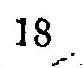18
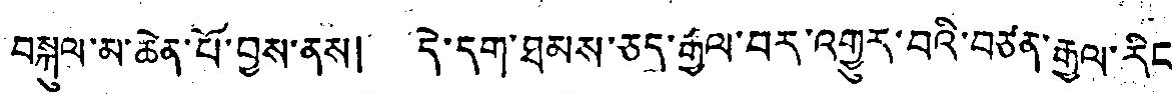བསྐུལ་མ་ཆེན་པོ་བྱས་ནས། དེ་དག་ཐམས་ཅད་རྒྱལ་བར་འགྱུར་བའི་བཙན་རྒྱལ་རིང
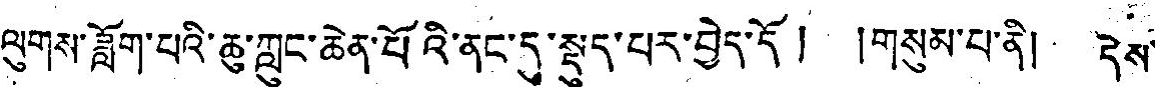ལུགས་ཟློག་པའི་ཆུ་ཀླུང་ཆེན་པོའི་ནང་དུ་སྡུད་པར་བྱེད་དོ། །གསུམ་པ་ནི། དེས་
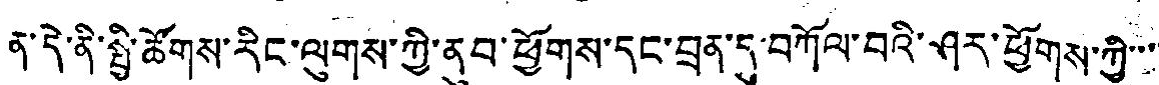ན་དེ་ནི་སྤྱི་ཚོགས་རིང་ལུས་ཀྱི་ནུབ་ཕྱོགས་དང་བྲན་དུ་བཀོལ་བའི་ཤར་ཕྱོགས་ཀྱི་་་་
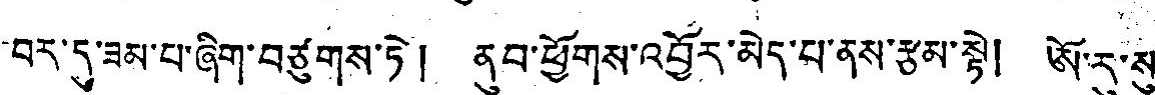བར་དུ་ཟམ་པ་ཞིག་བཙུགས་ཏེ། ནུབ་ཕྱོགས་འབྱོར་མེད་པ་ནས་རྩམ་སྟེ། ཨོ་རུ་སུ་
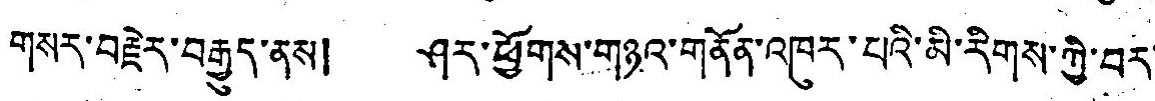གསར་བརྗེར་བརྒྱུད་ནས། ཤར་ཕྱོགས་གཉའ་གནོན་འཁུར་པའི་མི་རིགས་ཀྱི་བར་
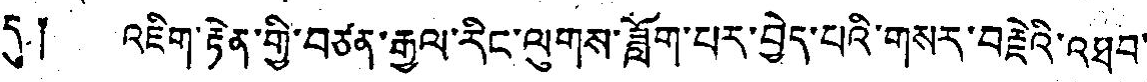དུ༐ འཇིག་རྟེན་གྱི་བཙན་རྒྱལ་རིང་ལུགས་ཟློག་པར་བྱེད་པའི་གསར་བརྗེའི་འཐབ་
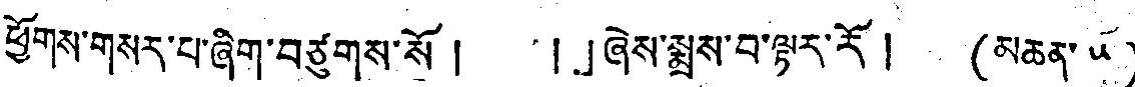ཕྱོགས་གསར་པ་ཞིག་བཙུགས་སོ ། །」ཞེས་སྨྲས་བ་ལྟར་རོ ། (མཆན་ ༥)
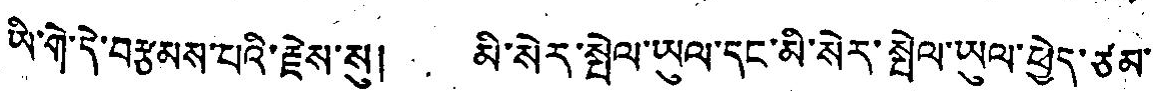ཡི་གེ་དེ་བརྩམས་པའི་རྗེས་སུ། མི་སེར་སྤེལ་ཡུལ་དང་མི་སེར་སྤེལ་ཡུལ་ཕྱེད་ཙམ་
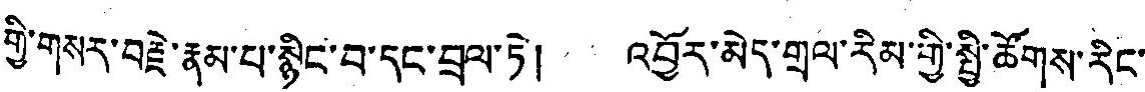གྱི་གསར་བརྗེ་རྣམ་པ་སྙིང་བ་དང་བྲལ་ཏེ། འབྱོར་མེད་གྲལ་རིམ་གྱི་སྤྱི་ཚོགས་རིང་
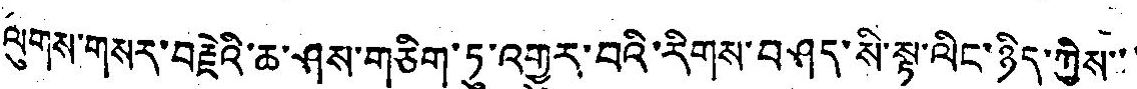ལུགས་གསར་བརྗེའི་ཆ་ཤས་གཅིག་ཏུ་འགྱུར་བའི་རིགས་བཤད་སི་སྟ་ལིང་ཉིད་ཀྱིས་་་
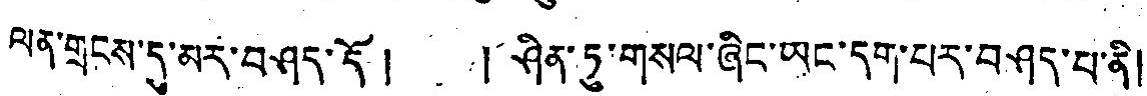ལན་གྲངས་དུ་མར་བཤད་དོ ། ། ཤིན་ཏུ་གསལ་ཞིང་ཡང་དག་པར་བཤད་པ་ནི།
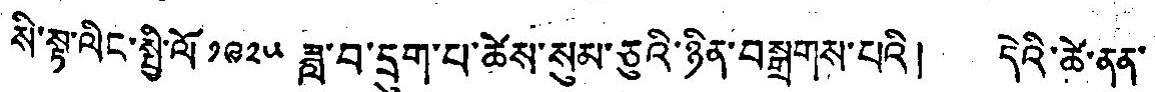སི་སྟ་ལིང་སྤྱི་ལོ ༡༩༢༥ ཟླ་བ་དྲུག་པ་ཚེས་སུམ་ཅུའི་ཉིན་བསྒྲགས་པའི། དེའི་ཚེ་ནན་
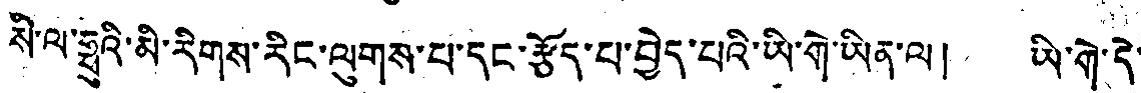སི་ལ་ཧྥུའི་མི་རིགས་རིང་ལུགས་པ་དང་རྩོད་པ་བྱེད་པའི་ཡི་གེ་ཡིན་ལ། ཡི་གེ་དེ་
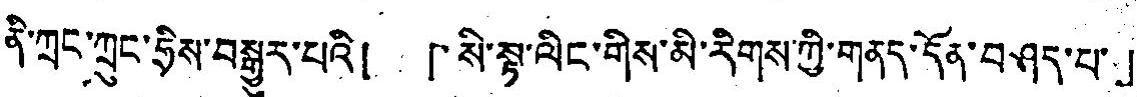ནི་ཀྲང་ཀྲུང་ཧྲིས་བསྒྱུར་པའི། 「སི་སྟ་ལིང་གིས་མི་རིགས་ཀྱི་གནད་དོན་བཤད་པ་」
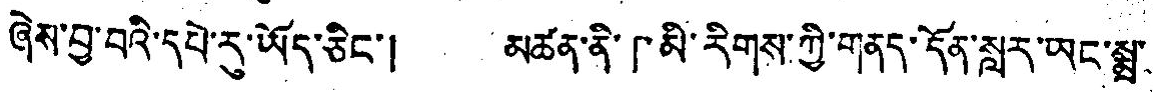ཞེས་བྱ་བའི་དཔེ་རུ་ཡོད་ཅིང་། མཚན་ནི་「མི་རིགས་ཀྱི་གནད་དོན་སླར་ཡང་སྨྲ་
